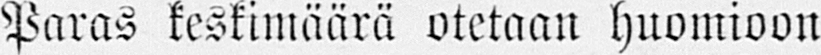Paras keskimäärä otetaan huomioon
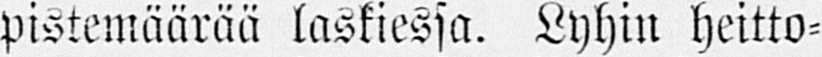pistemäärää laskiessa. Lyhin heitto-
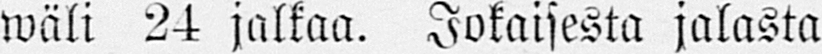wäli 24 jalkaa. Jokaisesta jalasta
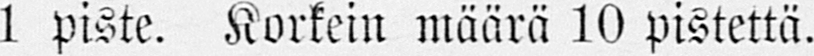1 piste. Korkein määrä 10 pistettä.
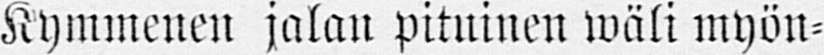Kymmenen jalan pituinen wäli myön-
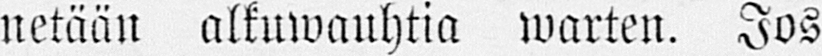netään alkuwauhtia warten. Jos
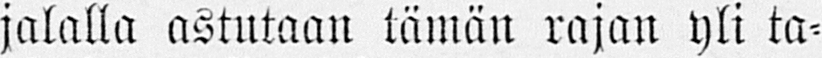jalalla astutaan tämän rajan yli ta-
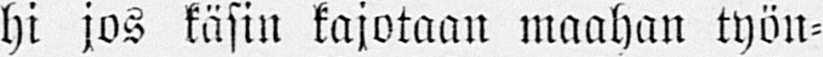hi jos käsin kajotaan maahan työn-
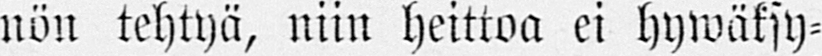nön tehtyä, niin heittoa ei hywäksy-
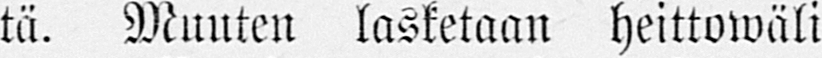tä. Muuten lasketaan heittowäli
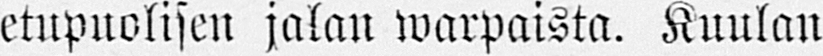etupuolisen jalan warpaista. Kuulan
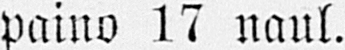paino 17 naul.
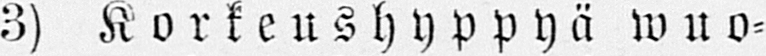Z) Korkeushyppyä wuo-
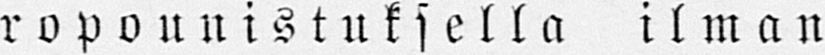ropounistuksella ilman
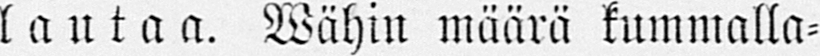lautaa. Wähin määrä kummalla-
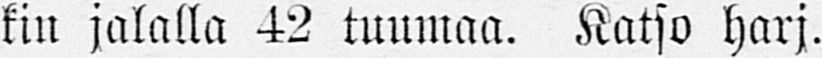kin jalalla 42 tuumaa. Katso harj.
